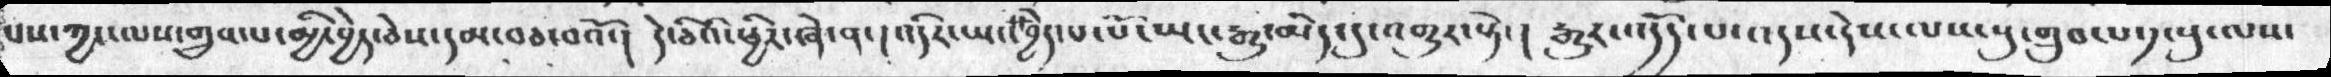པས་ཀྱང་ལས་གྲུབ་པ་མྱི་བྱེད་ཅེས་དམ་བཅ་བའོ་།  དེ་ཅིའི་ཕྱིར་ཞེ་ན་། འདིར་ཡང་བྱེད་པ་པོ་ཡང་རྒྱུ་མེད་དུ་འགྱུར་སྟེ་། རྒྱུར་འདོད་པ་འདས་དེས་ལས་སུ་གྲུབ་པ་༡་སུ་ལས་
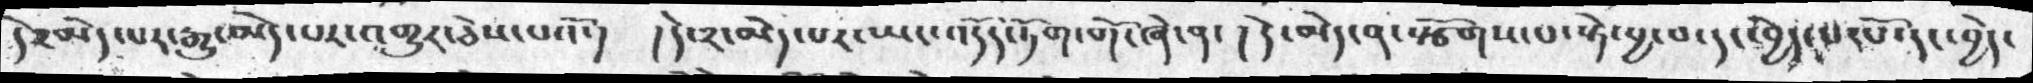དེ༢མེད་པར་རྒྱུ་མེད་པར་འགྱུར་ཅེས་པའོ་།  །དེ་༢་མེད་པར་ཡང་འདོད་ཏོག་གོ་ཞེ་ན་།  དེ་མེད་ན་སྩོགས་པ་སྟེ་བྱ་བ་དང་བྱེད་པ་པོ་དང་བྱེད་
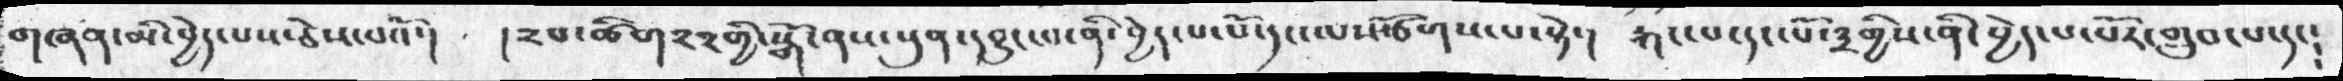གཞཉ་མི་བྱེད་པས་ཅེས་པའོ་།  །༢པ་ཚིག༢༢གྱི་སྒོ་ནས་སུན་དབྱུང་བ་ནི་བྱེད་པ་པོ་དང་ལསྩོགས་པ་སྟེ་།  རྐང་པ་དང་པོ་༣གྱིས་ནི་བྱེད་པ་པོར་གྲུབ་པ་དང༴
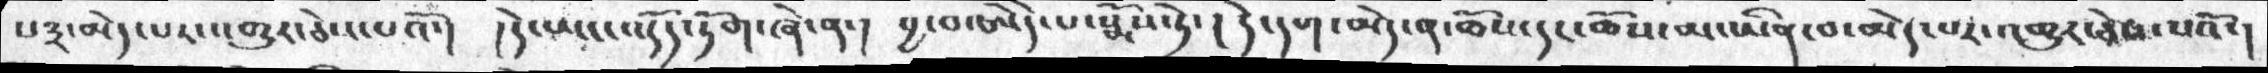པ༣་མེད་པར་འགྱུར་ཅེས་པའོ་།  ། དེ་ཡང་འདོད་ཏོག་ཞེ་ན་།  བྱ་བ་ཨེདེ་པ་སྨོས་ཏེ་ ། དེ་དག་མེད་ན་ཆོས་དང་ཆོས་མ་ཡིན་བ་མེད་པར་འགྱུར་ཅེས་པའོ་།
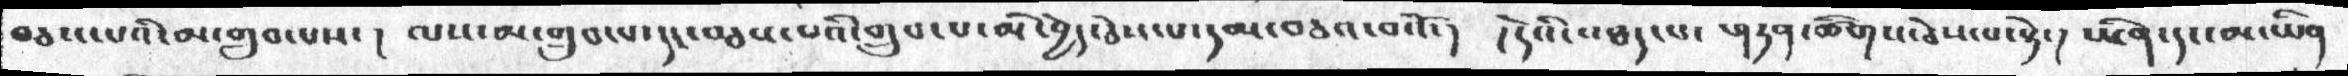བཅས་པའི་མ་གྲུབ་པས་ ། ལས་མ་གྲུབ་པ་དང་བཅས་པའི་གྲུབ་པ་མི་བྱེད་ཅེས་པ་དམ་བཅའ་བའོ་།   །དེའི་འཐད་པ་  གཏན་ཚིགས་ཅེས་པ་སྟེ་།  ཡིན་དང་མ་ཡིན་
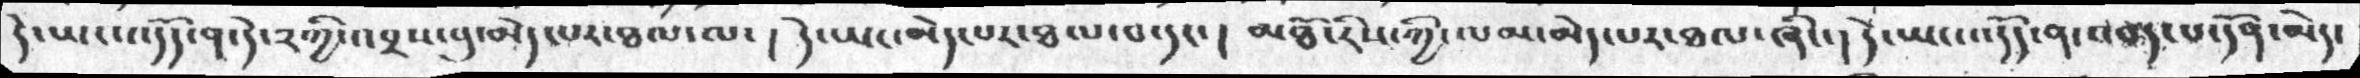དེ་ཡང་འདོད་ན་དེ་༢གྱི་འབྲས་བུ་མེད་པར་ཐལ་ལ་  ། དེ་ཡང་མེད་པར་ཐལ་པ་དང་ ། མཐོ་རིས་ཀྱི་ལམ་མེད་པར་ཐལ་ཞིང་། དེ་ཡང་འདོད་ན་འབད་པ་དོན་མེད་
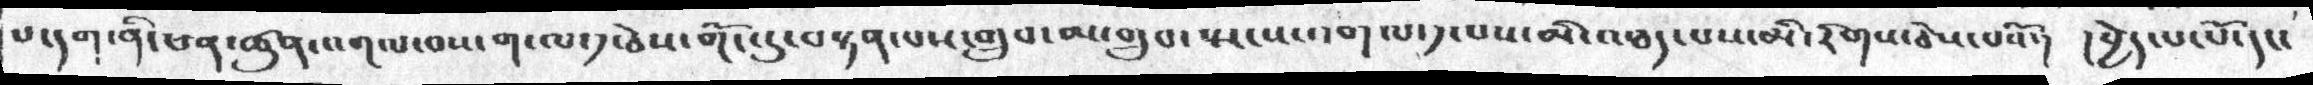པ་དག་ནི་ཕན་ཚུན་འགལ་བས་ག་ལ་༡་ཅེས་གོང་དུ་བསྟན་པས་གྲུབ་མ་གྲུབ་སྤངས་འགལ་དུ་པས་མི་འཐད་པས་མི་རིགས་ཅེས་པའོ་།  །བྱེད་པ་པོ་དང་
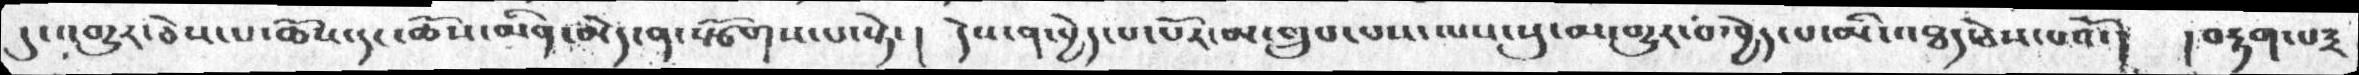དུ་འགྱུར་ཅེས་པ་ཆོས་དང་ཆོས་མིན་མེད་ན་སྩོགས་པ་སྟེ་ ། དེས་ན་བྱེད་པ་པོར་མ་གྲུབ་པས་ལས་སུ་མ་གྱུར་བ་བྱེད་པ་མི་འཐད་ཅེས་པའོ་།  ། བརྟག་པ༣
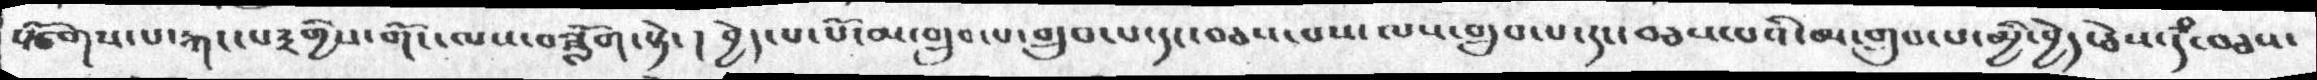སྩོགས་པ་རྐང་པ༣གྱིས་གོང་ལས་བཟློག་སྟེ་ ། བྱེད་པ་པོ་མ་གྲུབ་པ་གྲུབ་པ་དང་བཅས་པས་ལས་གྲུབ་པ་དང་བཅས་པའི་མ་གྲུབ་པ་མྱི་བྱེད་ཅེས་དཾ་བཅས་
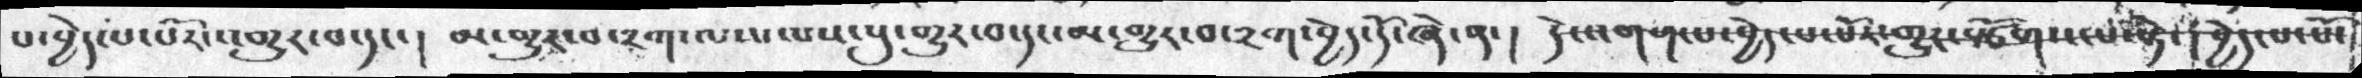པ་བྱེད་པ་པོར་འགྱུར་བ་དང་།  མ་གྱུར་བ་༢ག་ལས་ལས་སུ་གྱུར་བ་དང་མ་གྱུར་བ་༢ག་བྱེད་དོ་ཞེ་ན་།  དེ་འགག་པ་བྱེད་པ་པོར་གྱུར་སྩོགས་པ་སྟེ་། བྱེད་པ་པོ་
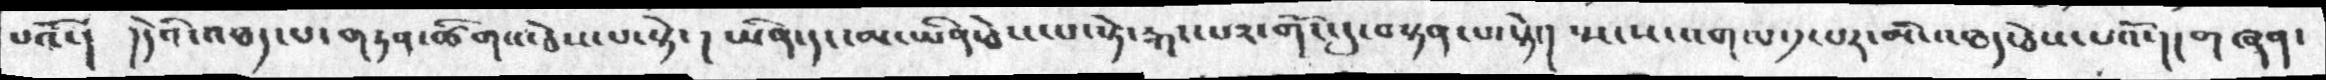པའོ་། །དེའི་འཐད་པ་གཏན་ཚིགས་ཅེས་པ་སྟེ་།  ཡིན་དང་མ་ཡིན་ཅེས་པ་སྟེ་རྐང་པར་གོང་དུ་བསྟན་པ་སྟེ་། སྤངས་འགལ་༡་པར་མི་འཐད་ཅེས་པའོ་། །གཞན་
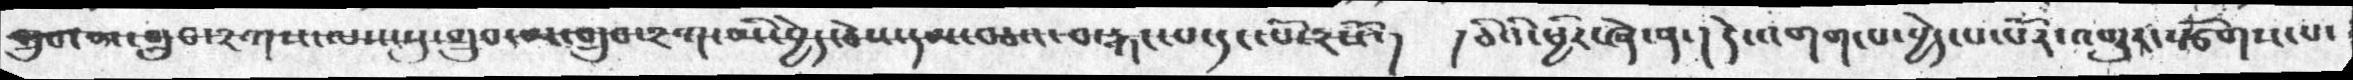གྲུབ་མ་གྲུབ་༢ཀ་ལས་སུ་གྲུབ་མ་གྲུབ་༢ཀ་མི་བྱེད་ཅེས་དམ་བཅའ་བ་རྐང་པ་དང་པོ་༢སོ་།  །ཅིའི་ཕྱིར་ཞེ་ན་། དེ་འགག་པ་བྱེད་པ་པོར་འགྱུར་སྩོགས་པ་
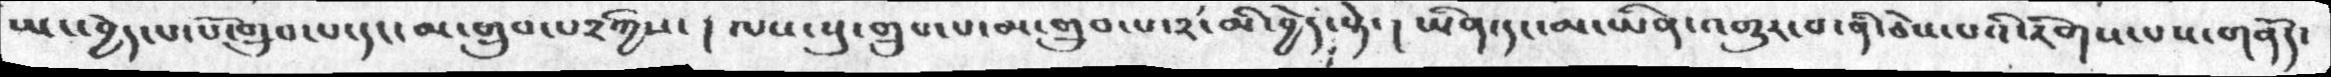ཡང་བྱེད་པ་པོ་གྲུབ་པ་དང་མ་གྲུབ་པ༢ཀྱིས་། ལས་སུ་གྲུབ་པ་མ་གྲུབ་པ་༢་མི་བྱེད་སྟེ་།  ཡིན་དང་མ་ཡིན་འགྱུར་བ་ནི་ཅེས་པའི་རིགས་པས་གནོད་
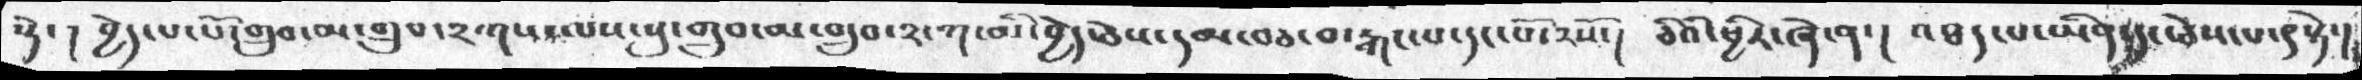སྡེ་། བྱེད་པ་པོ་གྲུབ་མ་གྲུབ་༢ཀས་ལས་སུ་གྲུབ་མ་གྲུབ་༢་ཀ་མི་བྱེད་ཅེས་དམ་བཅའ་བ་རྐང་པ་དང་པོ་༢སོ་། ཅིའི་ཕྱིར་ཞེ་ན་། འཐད་པ་ཡིན་ད་ ཕེས་པ་།སྟེ་།
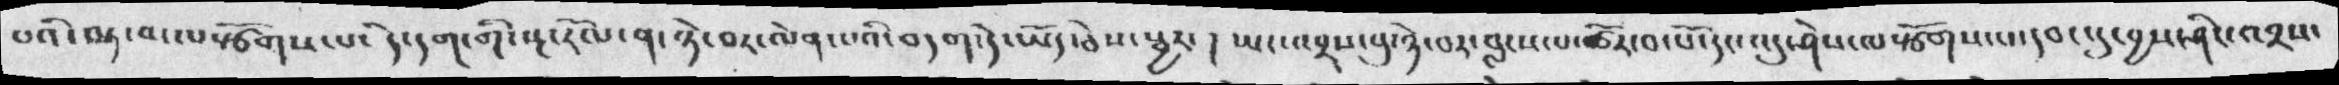པའི་ལྟ་བ་ལསྩོགས་པ་ དེ་དག་གི་སྔ་རོལ་ན་ཉེ་བར་ལེན་པའི་བདག་དེ་ཡོད་ཅེས་སྦྱར་།  ཡང་འབྲས་བུ་ཉེ་བར་བླངས་པ་ཚོར་བ་པོ་དང་འདུ་ཤེས་ལསྩོགས་པ་དབང་དུ་བྱས་ཤིང་འབྲས་
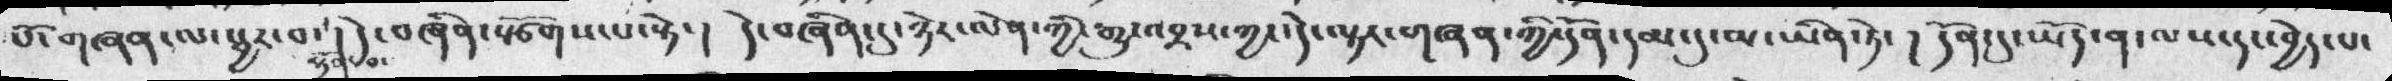པོ་གཞན་ལ་སྦྱར་བ་སྟོན་པ་། དེ་བཞིན་སྩོགས་པ་སྟ་།   དེ་བཞིན་དུ་ཉེར་ལེན་ཀྱི་རྒྱུ་འབྲས་ཀྱང་དེ་ལྟར་གཞན་གྱི་དོན་དམ་དུ་མ་ཡིན་ཏེ་།  དོན་དུ་ཡོད་ན་ལས་དང་བྱེད་པ་
